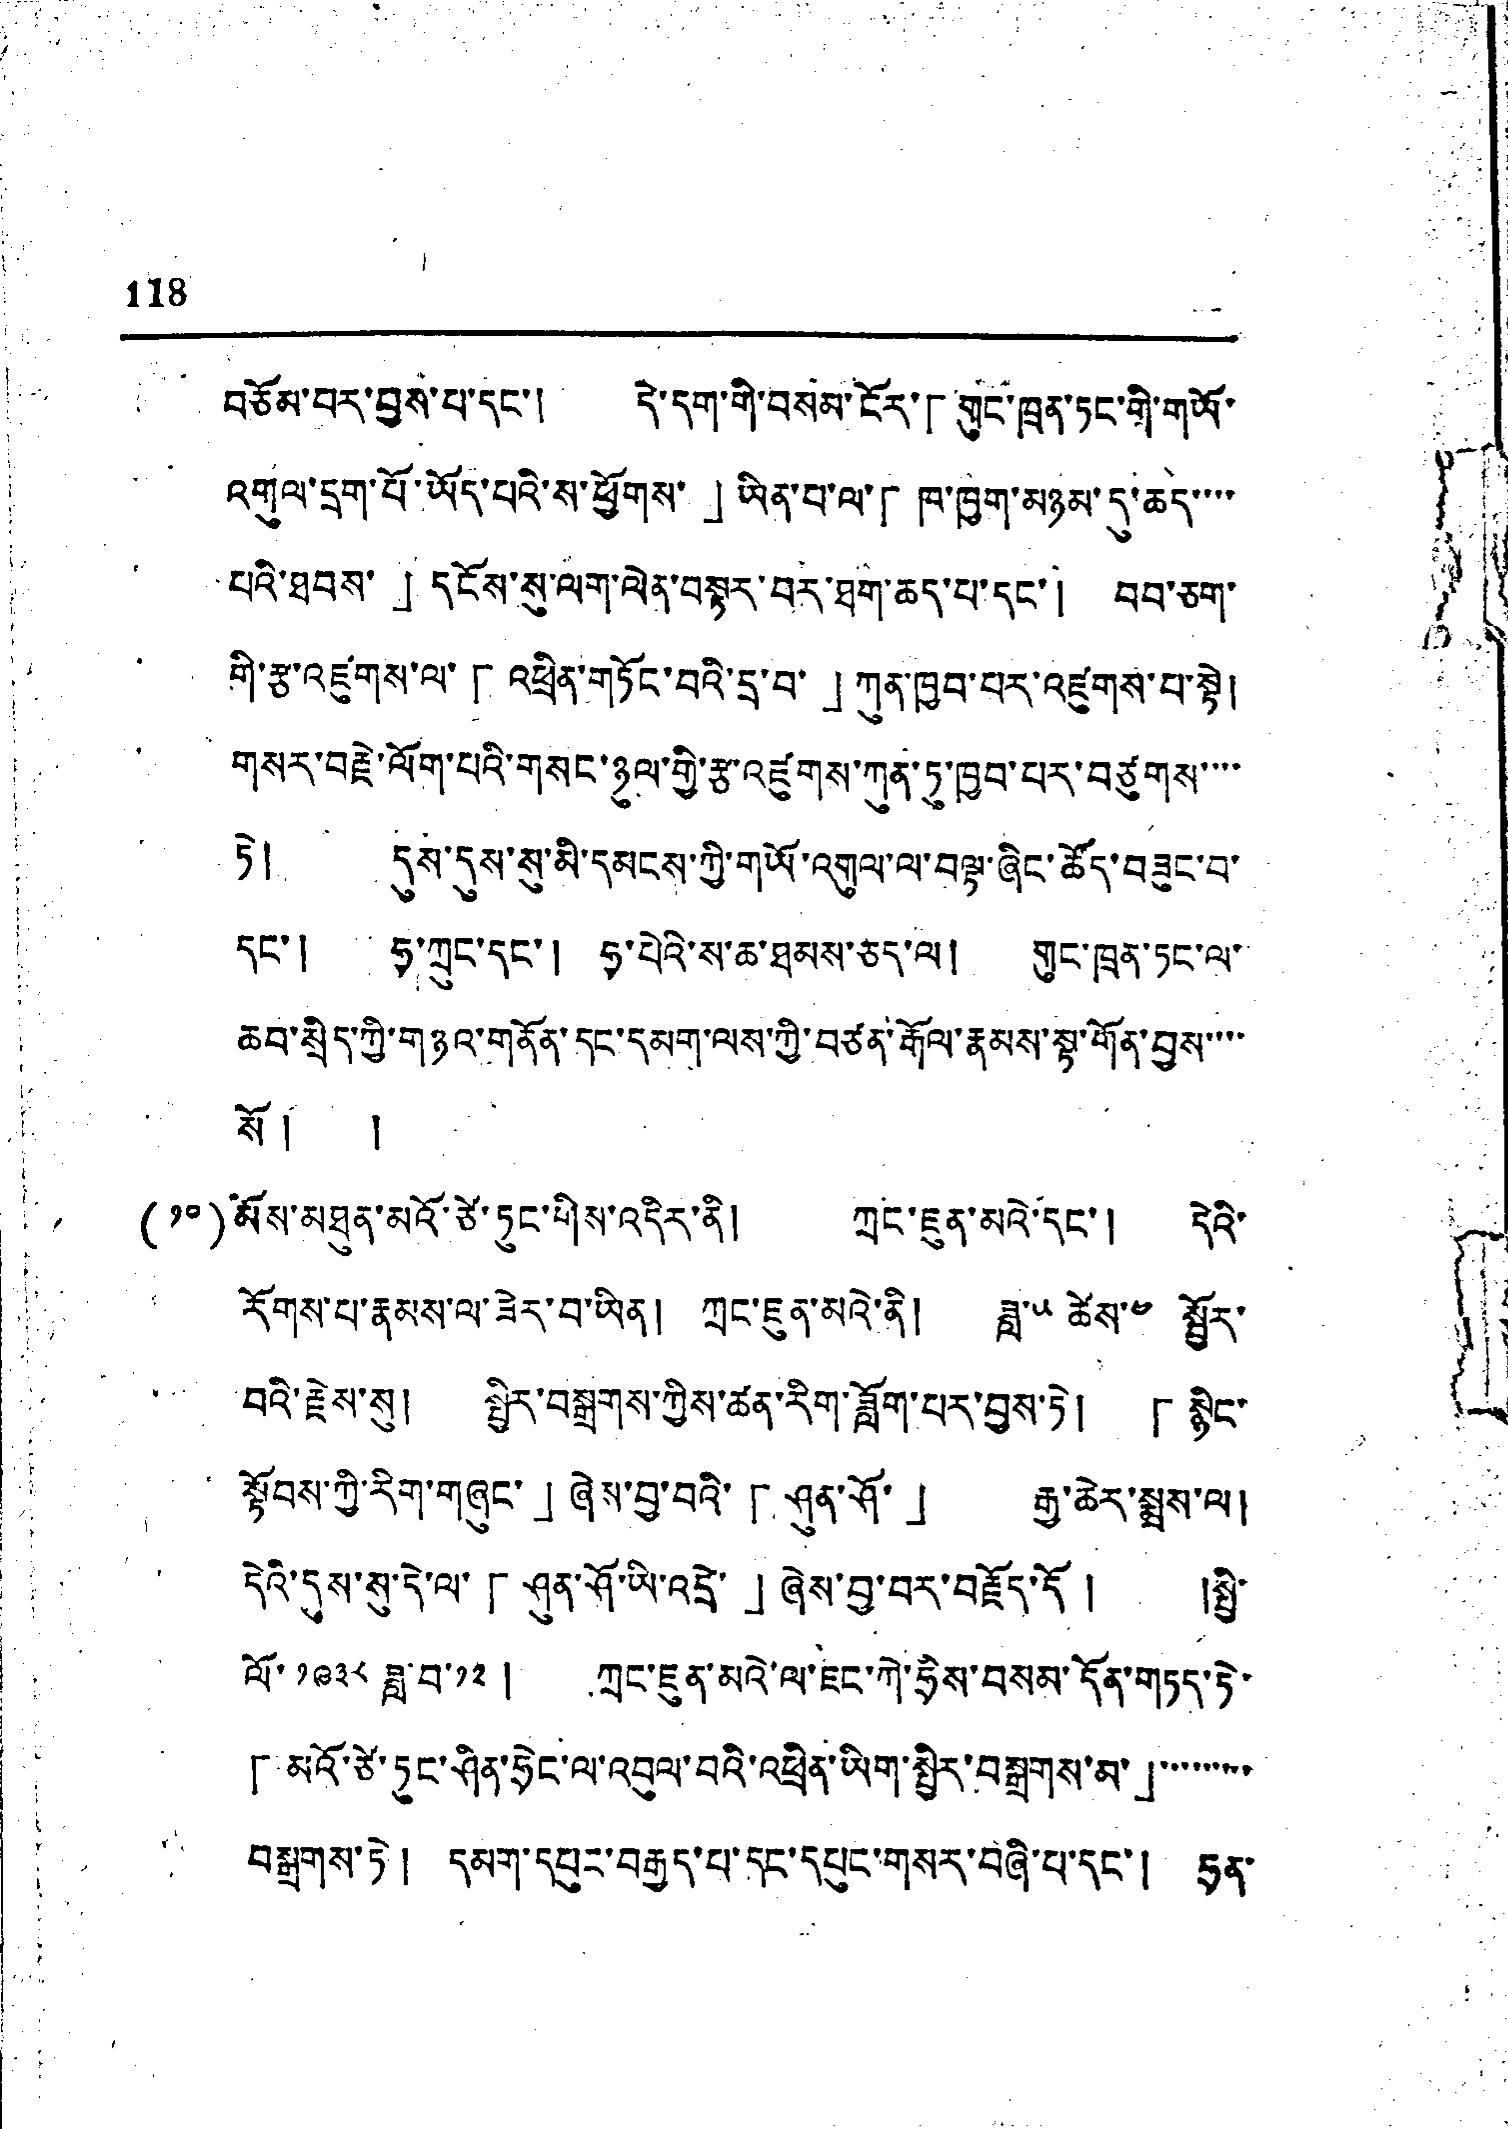118
བཅོམ་པར་བྱས་པ་དང་། དེ་དག་གིག་བསམ་ངོར་「གུང་ཁྲན་ཏང་གི་གཡོ
འགུལ་དྲག་པོ་ཡོད་པའི་ས་ཕྱོགས་」ཡིན་པ་ལ་「ཁ་ཁྱག་མཉམ་དུ་ཆད་་་་
པའི་ཐབས་」དངོས་སུ་ལག་ལེན་བསྟར་བར་ཐག་ཆད་པ་དང་། བབ་ཅག་
གི་རྩ་འཛུགས་ལ་「འཕྲིན་གཏོང་བའི་དྲ་བ་」ཀུན་ཁྱབ་པར་འཛུགས་པ་སྟེ།
གསར་བརྗེ་ལོག་པའི་གསང་ཉུལ་གྱི་རྩ་འཛུགས་ཀུན་ཏུ་ཁྱབ་པར་བཙུགས་་་་
ཏེ། དུས་དུས་སུ་མི་དམངས་ཀྱི་གཡོ་འགུལ་ལ་བལྟ་ཞིང་ཚོད་བཟུང་བ་
དང་།  ཧྭ་ཀྲུང་དང་། ཧྭ་པེའི་ས་ཆ་ཐམས་ཅད་ལ། གུང་ཁྲན་ཏང་ལ་
ཆབ་སྲིད་གྱི་གཉའ་གནོན་དང་དམག་ལས་ཀྱི་བཙན་རྒོལ་རྣམས་སྟ་གོན་བྱས་་་་
སོ། །
(༡༠)མོས་མཐུན་མའོ་ཙེ་ཏུང་གིས་འདིར་ནི། ཀྲང་ཇུན་མའེ་དང་། དེའི་
རོགས་པ་རྣམས་ལ་ཟེར་བ་ཡིན། ཀྲང་ཇུན་མའེ་ནི། ཟླ་༥ ཚེས་༤ སྦྱོར་
བའི་རྗེས་སུ། སྤྱིར་བསྒྲགས་ཀྱིས་ཚན་རིག་ཟློག་པར་བྱས་ཏེ། 「སྙིང་
སྟོབས་ཀྱི་རིག་གཞུང་」ཞེས་བྱས་བའི་「ཤུན་ཤོ་」 རྒྱ་ཆེར་སྨྲས་ལ།
དེའི་དུས་སུ་དེ་ལ་「ཤུན་ཤོ་ཡི་འདྲེ་」ཞེས་བྱས་བར་བརྗོད་དོ། །སྤྱི་
ལོ་༡༩༣༨ ཟླ་བ་༡༢། ཀྲང་ཇུན་མའེ་ལ་ཇང་ཀེ་ཧྲིས་བསམ་དོན་གཏད་ཏེ་
「མའོ་ཙེ་ཏུང་ཤིན་ཧྲེང་ལ་འབུལ་བའི་འཕྲིན་ཡིག་སྤྱིར་བསྒྲགས་མ་」་་་་་་་་་
བསྒྲགས་ཏེ། དམག་དཔུང་བརྒྱད་པ་དང་དཔུང་གསར་བཞི་པ་དང་། ཧྲན་
